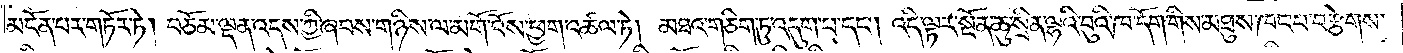མངོན་པར་གཏོར་ཏེ། བཅོམ་ལྡན་འདས་ཀྱི་ཞབས་གཉིས་ལ་མགོ་བོས་ཕྱག་འཚལ་ཏེ། མཐའ་གཅིག་ཏུ་འདུག་པ་དང༌། འདི་ལྟར་སྔོན་ཆུ་སྲིན་ལྷའི་བུའི་ཁ་དོག་གིས་མཐུས་ཁང་པ་བརྩེགས་
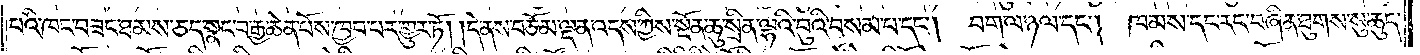པའི་ཁང་བཟང་ཐམས་ཅད་སྣང་བ་རྒྱ་ཆེན་པོས་ཁྱབ་པར་གྱུར་ཏོ། །དེ་ནས་བཅོམ་ལྡན་འདས་ཀྱིས་སྔོན་ཆུ་སྲིན་ལྷའི་བུའི་བསམ་པ་དང༌། བག་ལ་ཉལ་དང༌། ཁམས་དང་རང་བཞིན་ཐུགས་སུ་ཆུད་
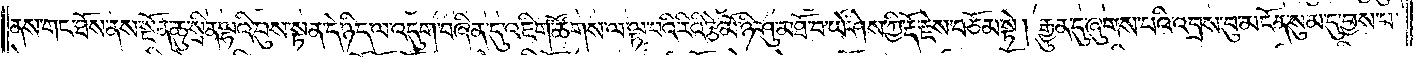ནས་གང་ཐོས་ནས་སྔོན་ཆུ་སྲིན་ལྷའི་བུས་སྟན་དེ་ཉིད་ལ་འདུག་བཞིན་དུ་འཇིག་ཚོགས་ལ་ལྟ་བའི་རིའི་རྩེ་མོ་ཉི་ཤུ་མཐོ་བ་ཡེ་ཤེས་ཀྱི་རྡོ་རྗེས་བཅོམ་སྟེ། རྒྱུན་དུ་ཞུགས་པའི་འབྲས་བུ་མངོན་སུམ་དུ་བྱས་པ་
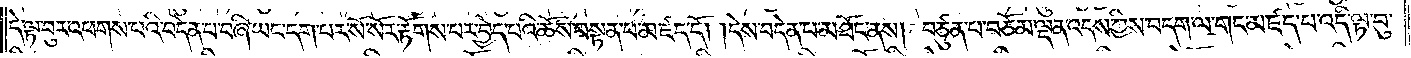དེ་ལྟ་བུར་འཕགས་པའི་བདེན་པ་བཞི་ཡང་དག་པར་སོ་སོར་རྟོགས་པར་བྱེད་པའི་ཆོས་བསྟན་པ་མཛད་དོ། །དེས་བདེན་པ་མཐོང་ནས། བཙུན་པ་བཅོམ་ལྡན་འདས་ཀྱིས་བདག་ལ་གང་མཛད་པ་འདི་ལྟ་བུ་
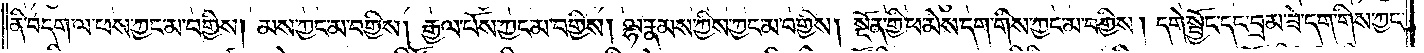ནི་བདག་ལ་ཕས་ཀྱང་མ་བགྱིས། མས་ཀྱང་མ་བགྱིས། རྒྱལ་པོས་ཀྱང་མ་བགྱིས། ལྷ་རྣམས་ཀྱིས་ཀྱང་མ་བགྱིས། སྔོན་གྱི་ཕ་མེས་དག་གིས་ཀྱང་མ་བགྱིས། དགེ་སྦྱོང་དང་བྲམ་ཟེ་དག་གིས་ཀྱང་
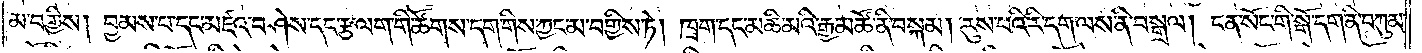མ་བགྱིས། བྱམས་པ་དང་མཛའ་བཤེས་དང་རྩ་ལག་གི་ཚོགས་དག་གིས་ཀྱང་མ་བགྱིས་ཏེ། ཁྲག་དང་མཆི་མའི་རྒྱ་མཚོ་ནི་བསྐམ། རུས་པའི་རི་དག་ལས་ནི་བསྒྲལ། ངན་སོང་གི་སྒོ་དག་ནི་བཀུམ་
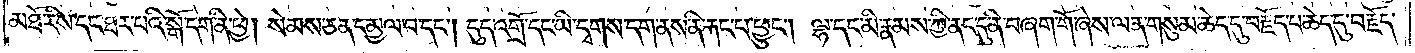མཐོ་རིས་དང་ཐར་པའི་སྒོ་དག་ནི་ཕྱེ། སེམས་ཅན་དམྱལ་བ་དང༌། དུད་འགྲོ་དང་ཡི་དྭགས་དག་ནས་ནི་རྐང་པ་ཕྱུང༌། ལྷ་དང་མི་རྣམས་ཀྱི་ནང་དུ་ནི་བཞག་གོ་ཞེས་ལན་གསུམ་ཆེད་དུ་བརྗོད་པ་ཆེད་དུ་བརྗོད་
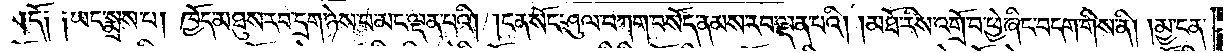དོ༑ ༑ཡང་སྨྲས་པ། ཁྱོད་མཐུས་རབ་དྲག་ཉེས་པ་མང་ལྡན་པའི། །ངན་སོང་ཤུལ་བཀག་བསོད་ནམས་རབ་ལྡན་པའི། །མཐོ་རིས་འགྲོ་བ་ཕྱེ་ཞིང་བདག་གིས་ནི། །མྱ་ངན་
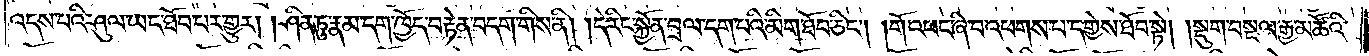འདས་པའི་ཤུལ་ཡང་ཐོབ་པར་གྱུར། །ཤིན་ཏུ་རྣམ་དག་ཁྱོད་བརྟེན་བདག་གིས་ནི། །དེ་རིང་སྐྱོན་བྲལ་དག་པའི་མིག་ཐོབ་ཅིང༌། །གོ་འཕང་ཞི་བ་འཕགས་པ་དགྱེས་ཐོབ་སྟེ། །སྡུག་བསྔལ་རྒྱ་མཚོའི་
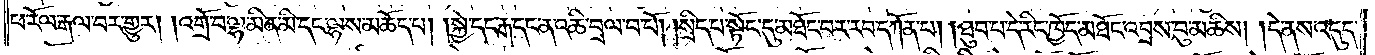ཕ་རོལ་རྒལ་བར་གྱུར། །འགྲོ་བ་ལྷ་མིན་མི་དང་ལྷས་མཆོད་པ། །སྐྱེ་དང་རྒ་དང་ན་འཆི་བྲལ་བ་པོ། །སྲིད་པ་སྟོང་དུ་མཐོང་བར་རབ་དཀོན་པ། །ཐུབ་པ་དེ་རིང་ཁྱོད་མཐོང་འབྲས་བུ་མཆིས། །དེ་ནས་འདུད་
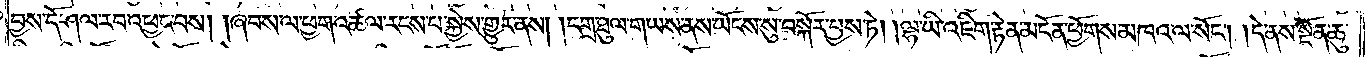བྱས་དོ་ཤལ་རབ་འཕྱང་བས། །ཞབས་ལ་ཕྱག་འཚལ་རངས་པ་སྐྱེས་གྱུར་ནས། །དགྲ་ཐུལ་གཡས་ནས་ཡོངས་སུ་བསྐོར་བྱས་ཏེ། །ལྷ་ཡི་འཇིག་རྟེན་མངོན་ཕྱོགས་མཁའ་ལ་སོང༌། །དེ་ནས་སྔོན་ཆུ་
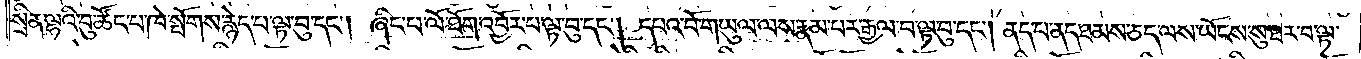སྲིན་ལྷའི་བུ་ཚོང་པ་ཁེ་སྤོགས་རྙེད་པ་ལྟ་བུ་དང༌། ཞིང་པ་ལོ་ཐོག་འབྱོར་པ་ལྟ་བུ་དང༌། དཔའ་བོ་གཡུལ་ལས་རྣམ་པར་རྒྱལ་པ་ལྟ་བུ་དང༌། ནད་པ་ནད་ཐམས་ཅད་ལས་ཡོངས་སུ་ཐར་བ་ལྟ་
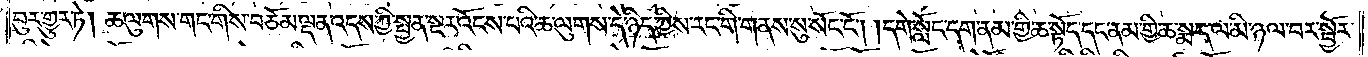བུར་གྱུར་ཏེ། ཆ་ལུགས་གང་གིས་བཅོམ་ལྡན་འདས་ཀྱི་སྤྱན་སྔར་འོངས་པའི་ཆ་ལུགས་དེ་ཉིད་ཀྱིས་རང་གི་གནས་སུ་སོང་ངོ༌། །དགེ་སློང་དག་ནམ་གྱི་ཆ་སྟོད་དང་ནམ་གྱི་ཆ་སྨད་ལ་མི་ཉལ་བར་སྦྱོར་
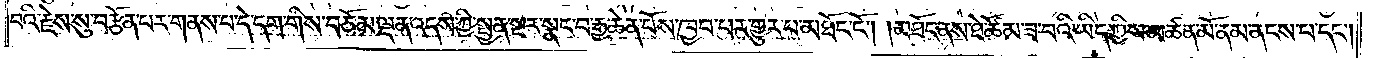པའི་རྗེས་སུ་བརྩོན་པར་གནས་པ་དེ་དག་གིས་བཅོམ་ལྡན་འདས་ཀྱི་སྤྱན་སྔར་སྣང་བ་རྒྱ་ཆེན་པོས་ཁྱབ་པར་གྱུར་པ་མཐོང་ངོ༌། །མཐོང་ནས་ཐེ་ཚོམ་ཟ་བའི་ཡིད་ཀྱིས་མཚན་མོ་ནམ་ནངས་པ་དང༌།
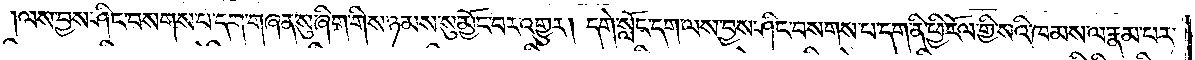ལས་བྱས་ཤིང་བསགས་པ་དག་གཞན་སུ་ཞིག་གིས་ཉམས་སུ་མྱོང་བར་འགྱུར། དགེ་སློང་དག་ལས་བྱས་ཤིང་བསགས་པ་དག་ནི་ཕྱི་རོལ་གྱི་སའི་ཁམས་ལ་རྣམ་པར་
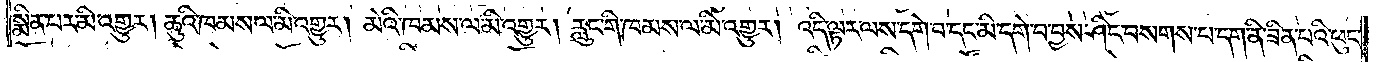སྨིན་པར་མི་འགྱུར། ཆུའི་ཁམས་ལ་མི་འགྱུར། མེའི་ཁམས་ལ་མི་འགྱུར། རླུང་གི་ཁམས་ལ་མི་འགྱུར། རླུང་གི་ཁམས་ལ་མི་འགྱུར། འདི་ལྟར་ལས་དགེ་བ་དང་མི་དགེ་བ་བྱས་ཤིང་བསགས་པ་དག་ནི་ཟིན་པའི་ཕུང་
